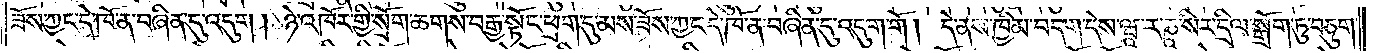ཟོས་ཀྱང་དེ་ཁོ་ན་བཞིན་དུ་འདུག །ཉེ་འཁོར་གྱི་སྲོག་ཆགས་བརྒྱ་སྟོང་ཕྲག་དུ་མས་ཟོས་ཀྱང་དེ་ཁོ་ན་བཞིན་དུ་འདུག་གོ། དེ་ནས་ཁྱིམ་བདག་དེས་ཝཱ་ར་ཎཱ་སིར་དྲིལ་སྒྲོག་ཏུ་བཅུག་
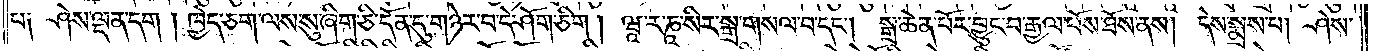པ༑ ཤེས་ལྡན་དག །ཁྱེད་ཅག་ལས་སུ་ཞིག་ཅི་དོན་དུ་གཉེར་བ་དེ་ཤོག་ཅིག། ཝཱ་ར་ཎཱ་སིར་སྒྲ་གསལ་བ་དང༌། སྒྲ་ཆེན་པོར་བྱུང་བ་རྒྱལ་པོས་ཐོས་ནས། དེས་སྨྲས་པ། ཤེས་
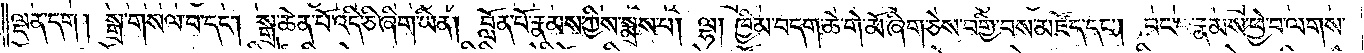ལྡན་དག །སྒྲ་གསལ་བ་དང༌། སྒྲ་ཆེན་པོ་འདི་ཅི་ཞིག་ཡིན། བློན་པོ་རྣམས་ཀྱིས་སྨྲས་པ། ལྷ། ཁྱིམ་བདག་ཆེ་གེ་མོ་ཞིག་ཅེས་བགྱི་བས་མཛོད་དང༌། བང་བ་རྣམས་ཕྱེ་བ་ལགས་
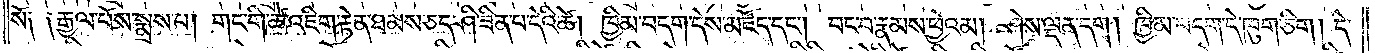སོ༑ ༑རྒྱལ་པོས་སྨྲས་པ། གང་གི་ཚེ་འཇིག་རྟེན་ཐམས་ཅད་ཤི་ཟིན་པ་དེའི་ཚེ། ཁྱིམ་བདག་དེས་མཛོད་དང༌། བང་བ་རྣམས་ཕྱེའམ། ཤེས་ལྡན་དག །ཁྱིམ་བདག་དེ་ཁུག་ཅིག །དེ་
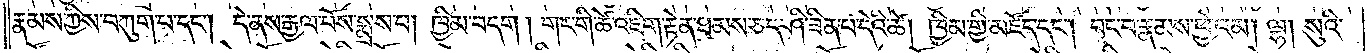རྣམས་ཀྱིས་བཀུག་པ་དང༌། དེ་ནས་རྒྱལ་པོས་སྨྲས་པ། ཁྱིམ་བདག །གང་གི་ཚེ་འཇིག་རྟེན་ཐམས་ཅད་ཤི་ཟིན་པ་དེའི་ཚེ། ཁྱིམ་གྱི་མཛོད་དང༌། བང་བ་རྣམས་ཕྱེ་འམ། ལྷ། སུའི་
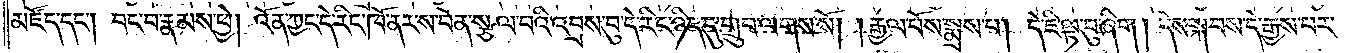མཛོད་དང༌། བང་བ་རྣམས་ཕྱེ། འོན་ཀྱང་དེ་རིང་ཁོ་ནར་ས་བོན་སྩལ་བའི་འབྲས་བུ་དེ་རིང་ཉིད་དུ་གྲུབ་ལགས་སོ། །རྒྱལ་པོས་སྨྲས་པ། དེ་ཇི་ལྟ་བུ་ཞིག །དེས་སྐབས་དེ་རྒྱས་པར་
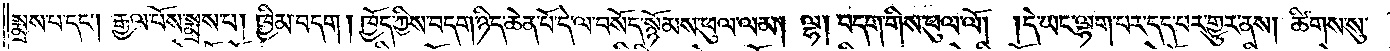སྨྲས་པ་དང༌། རྒྱལ་པོས་སྨྲས་པ། ཁྱིམ་བདག །ཁྱོད་ཀྱིས་བདག་ཉིད་ཆེན་པོ་དེ་ལ་བསོད་སྙོམས་ཕུལ་ལམ། ལྷ། བདག་གིས་ཕུལ་ལོ། །དེ་ཡང་ལྷག་པར་དད་པར་གྱུར་ནས། ཚིགས་སུ་
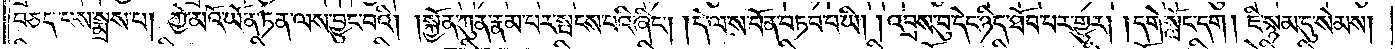བཅད་པས་སྨྲས་པ། ཀྱེ་མའོ་ཡོན་ཏན་ལས་བྱུང་བའི། །སྐྱོན་ཀུན་རྣམ་པར་སྤངས་པའི་ཞིང༌། །དེ་ལ་ས་བོན་བཏབ་པ་ཡི། །འབྲས་བུ་དེང་ཉིད་ཐོབ་པར་གྱུར། །དགེ་སློང་དག །ཇི་སྙམ་དུ་སེམས།
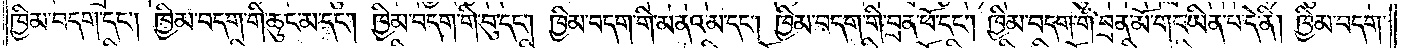ཁྱིམ་བདག་དང༌། ཁྱིམ་བདག་གི་ཆུང་མ་དང༌། ཁྱིམ་བདག་གི་བུ་དང༌། ཁྱིམ་བདག་གི་མནའ་མ་དང༌། ཁྱིམ་བདག་གི་བྲན་ཕོ་དང༌། ཁྱིམ་བདག་གི་བྲན་མོ་གང་ཡིན་པ་དེ་ནི། ཁྱིམ་བདག་
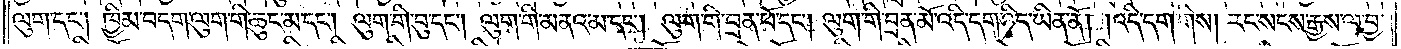ལུག་དང༌། ཁྱིམ་བདག་ལུག་གི་ཆུང་མ་དང༌། ལུག་གི་བུ་དང༌། ལུག་གི་མནའ་མ་དང༌། ལུག་གི་བྲན་ཕོ་དང༌། ལུག་གི་བྲན་མོ་འདི་དག་ཉིད་ཡིན་ནོ། །འདི་དག་གིས། །རང་སངས་རྒྱས་ལ་བྱ་
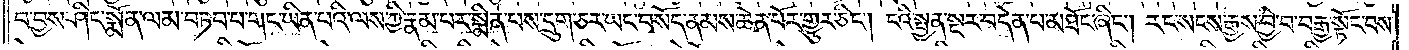བ་བྱས་ཤིང་སྨོན་ལམ་བཏབ་པ་གང་ཡིན་པའི་ལས་ཀྱི་རྣམ་པར་སྨིན་པས་དྲུག་ཅར་ཡང་བསོད་ནམས་ཆེན་པོར་གྱུར་ཅིང༌། ངའི་སྤྱན་སྔར་བདེན་པ་མཐོང་ཞིང༌། རང་སངས་རྒྱས་བྱེ་བ་བརྒྱ་སྟོང་བས་
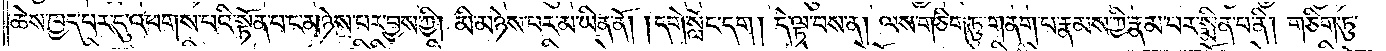ཆེས་ཁྱད་པར་དུ་འཕགས་པའི་སྟོན་པ་ང་མཉེས་པར་བྱས་ཀྱི། མི་མཉེས་པར་མ་ཡིན་ནོ། །དགེ་སློང་དག །དེ་ལྟ་བས་ན། ལས་གཅིག་ཏུ་གནག་པ་རྣམས་ཀྱི་རྣམ་པར་སྨིན་པ་ནི། གཅིག་ཏུ་
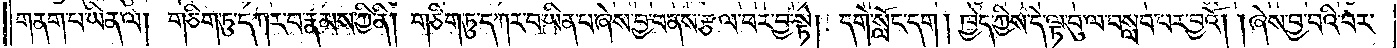གནག་པ་ཡིན་ལ། གཅིག་ཏུ་དཀར་བ་རྣམས་ཀྱི་ནི། གཅིག་ཏུ་དཀར་བ་ཡིན་པ་ཞེས་བྱ་བ་ནས་རྩལ་བར་བྱ་སྟེ། དགེ་སློང་དག །ཁྱེད་ཀྱིས་དེ་ལྟ་བུ་ལ་བསླབ་པར་བྱའོ། །ཞེས་བྱ་བའི་བར་
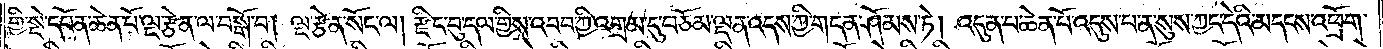གྱི་སྡེ་དཔོན་ཆེན་པོ་ལྔ་རྩེན་ལ་བསྒོ་བ། ལྔ་རྩེན་སོང་ལ། རྫིང་བུ་དལ་གྱིས་འབབ་ཀྱི་འགྲམ་དུ་བཅོམ་ལྡན་འདས་ཀྱི་གདན་ཤོམས་ཏེ། འདུན་པ་ཆེན་པོ་འདུས་པ་ན་སུས་ཀྱང་དེའི་མདངས་འཕྲོག་
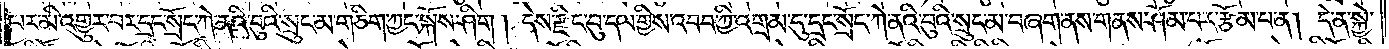པར་མི་འགྱུར་བར་དྲང་སྲོང་ཀེ་ནའི་བུའི་སྲུང་མ་གཅིག་ཀྱང་སྐོས་ཤིག །དེས་རྫིང་བུ་དལ་གྱིས་འབབ་ཀྱི་འགྲམ་དུ་དྲང་སྲོང་ཀེ་ནའི་བུའི་སྲུང་མ་བཞག་ནས་གནས་ཤོམ་པར་རྩོམ་པ་ན། དེ་ན་སྐྱེ་
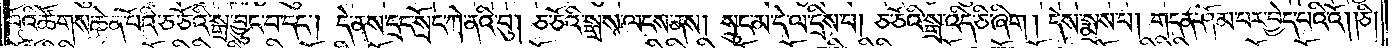བོའི་ཚོགས་ཆེན་པོའི་ཅ་ཅོའི་སྒྲ་བྱུང་བ་དང༌། དེ་ནས་དྲང་སྲོང་ཀེ་ནའི་བུ། ཅ་ཅོའི་སྒྲས་ལངས་ནས། སྲུང་མ་དེ་ལ་དྲིས་པ། ཅ་ཅོའི་སྒྲ་འདི་ཅི་ཞིག །དེས་སྨྲས་པ། གདན་ཤོམ་པར་བྱེད་པའི་འོ། །ཅི།
